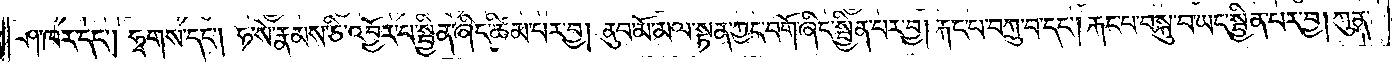ཤ་ཁར་དང༌། ཧྭགས་དང༌། ཧ་སེ་རྣམས་ཅི་འབྱོར་པ་སྦྱིན་ཞིང་ཚིམ་པར་བྱ། ནུབ་མོ་མལ་སྟན་ཀྱང་བགོ་ཞིང་སྦྱིན་བར་བྱ། རྐང་པ་བཀྲུ་བ་དང༌། རྐང་པ་བསྐུ་བ་ཡང་སྦྱིན་པར་བྱ། ཀུན་
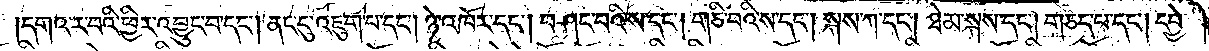དགའ་ར་བའི་ཕྱིར་འབྱུང་བ་དང༌། ནང་དུ་འཇུག་པ་དང༌། ཉེ་འཁོར་དང༌། བཤང་བའི་ས་དང༌། གཅི་བའི་ས་དང༌། སྐས་ཀ་དང༌། ཐེམ་སྐས་དང༌། གཅད་པ་དང༌། དབྱེ་
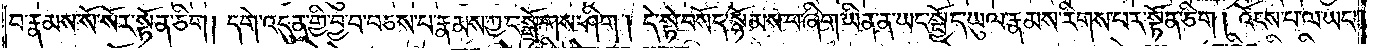བ་རྣམས་སོ་སོར་སྟོན་ཅིག །དགེ་འདུན་གྱི་བྱ་བ་བཅས་པ་རྣམས་ཀྱང་སྒྲོགས་ཤིག །དེ་སྟེ་བསོད་སྙོམས་པ་ཞིག་ཡིན་ན་ཡང་སྤྱོད་ཡུལ་རྣམས་རིགས་པར་སྟོན་ཅིག །འོངས་པ་ལ་ཡང་
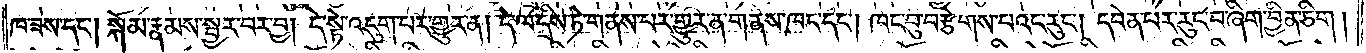ཁ་ཟས་དང༌། སྐོམ་རྣམས་སྦྱར་བར་བྱ། དེ་སྟེ་འདུག་པར་གྱུར་ན། དེ་ལ་དྲིས་ཏེ་གནས་པར་གྱུར་ན་གནས་ཁང་དང༌། ཁང་བུ་བརྩེགས་པའང་རུང༌། དབེན་པར་རུང་བ་ཞིག་བྱིན་ཅིག །
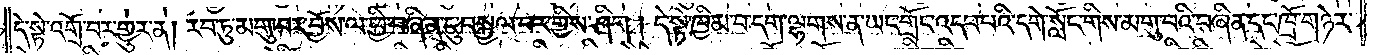དེ་སྟེ་འགྲོ་བར་གྱུར་ན། རབ་ཏུ་མགུ་བར་བྱོས་ལ་ཕྱི་བཞིན་དུ་བསྐྱལ་བར་གྱིས་ཤིག །དེ་སྟེ་ཁྱིམ་བདག་ལྷགས་ན་ཡང་གྲོང་འདབ་པའི་དགེ་སློང་གིས་མགུ་བའི་བཞིན་དང་ཁྲོ་གཉེར་
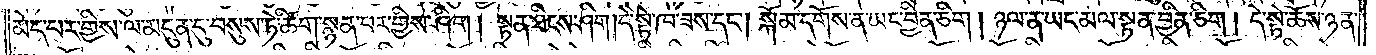མེད་པར་གྱིས་ལ་མདུན་དུ་བསུས་ཏེ་ཚིག་སྙན་པར་གྱིས་ཤིག །སྟན་ཐིངས་ཤིག །དེ་སྟེ་ཁ་ཟས་དང༌། སྐོམ་དགོས་ན་ཡང་བྱིན་ཅིག །ཉལ་ན་ཡང་མལ་སྟན་བྱིན་ཅིག །དེ་སྟེ་ཆོས་ཉན་
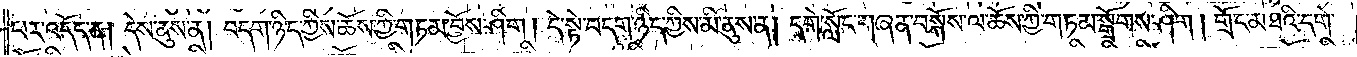པར་འདོད་ན། དེས་ནུས་ན། བདག་ཉིད་ཀྱིས་ཆོས་ཀྱི་གཏམ་བྱོས་ཤིག །དེ་སྟེ་བདག་ཉིད་ཀྱིས་མི་ནུས་ན། དགེ་སློང་གཞན་བསྐོས་ལ་ཆོས་ཀྱི་གཏམ་སྒྲོགས་ཤིག། གྲོང་མཐའི་དགེ་
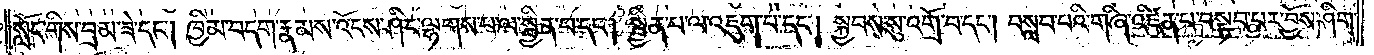སློང་གིས་བྲམ་ཟེ་དང༌། ཁྱིམ་བདག་རྣམས་འོངས་ཤིང་ལྷགས་པ་ལ་སྦྱིན་པ་དང༌། སྦྱིན་པ་ལ་འཇུག་པ་དང༌། སྐྱབས་སུ་འགྲོ་བ་དང༌། བསླབ་པའི་གཞི་འཛིན་པ་བསྟབ་པར་བྱོས་ཤིག་
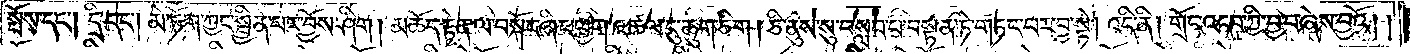སྤོས་དང༌། དྲི་དང༌། མེ་ཏོག་ཀྱང་སྦྱིན་པར་བྱོས་ཤིག། མཆོད་རྟེན་ལ་བསྐོར་ཞིང་ཕྱག་འཚལ་དུ་ཆུག་ཅིག །ཅི་ནུས་སུ་བསླབ་པ་བསྟན་ཏེ་གཏང་བར་བྱ་སྟེ། འདི་ནི། གྲོང་འདབ་ཀྱི་བྱ་བ་ཞེས་བྱའོ། །
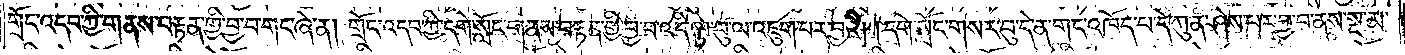གྲོང་འདབ་ཀྱི་གནས་བརྟན་གྱི་བྱ་བ་གང་ཞེ་ན། གྲོང་འདབ་ཀྱི་དགེ་སློང་གནས་བརྟན་གྱི་བྱ་བ་འདི་ལྟ་བུ་ལ་འཇུག་པར་བྱའོ། །དགེ་སློང་གསར་བུ་དེ་ན་གང་འཁོད་པ་དེ་ཀུན་ཤེས་པར་བྱ་བ་ནས་སྔ་མ་
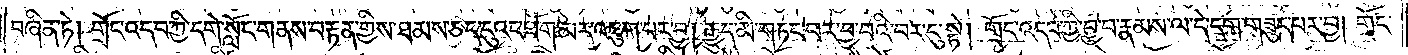བཞིན་ཏེ། གྲོང་འདབ་ཀྱི་དགེ་སློང་གནས་བརྟན་གྱིས་ཐམས་ཅད་དུའང་ཐོག་མར་འཇུག་པར་བྱ། རྒྱུད་མི་གཏང་བར་བྱ་བའི་བར་དུ་སྟེ། གྲོང་འདབ་ཀྱི་བྱ་བ་རྣམས་ལ་དེ་དག་གཟུད་པར་བྱ། གྲོང་
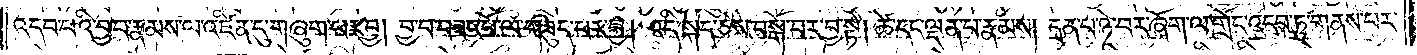འདབ་པའི་བྱ་བ་རྣམས་ལ་འཛིན་དུ་གཞུག་པར་བྱ། བྱ་བ་བཟང་པོ་ལ་གཟུད་པར་བྱ། འདི་སྐད་ཅེས་བསྒོ་བར་བྱ་སྟེ། ཚེ་དང་ལྡན་པ་རྣམས། དྲན་པ་ཉེ་བར་ཞོག་ལ་གྲོང་འདབ་ཏུ་གནས་པར་
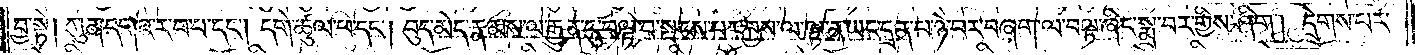བྱ་སྟེ། ཀུན་དགའ་ར་བ་པ་དང༌། དགེ་ཚུལ་ཕ་དང༌། བུད་མེད་རྣམས་ལ་རྒྱུན་དུ་བལྟ་བ་སྤངས་པར་བྱས་ལ་ལྟ་ན་ཡང་དྲན་ལ་ཉེ་བར་བཞག་ལ་བལྟ་ཞིང་སྨྲ་བར་གྱིས་ཤིག །དྲེགས་པར་
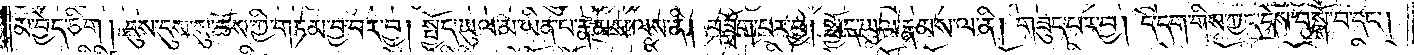མ་བྱེད་ཅིག །དུས་དུས་སུ་ཆོས་ཀྱི་གཏམ་བྱ་བར་བྱ། སྤྱོད་ཡུལ་མ་ཡིན་པར་རྣམས་ལས་ནི། བཟློག་པར་བྱ། སྤྱོད་ཡུལ་རྣམས་ལ་ནི། གཟུད་པར་བྱ། དེ་དག་གིས་ཀྱང་དེས་བསྒོ་བ་དང༌།
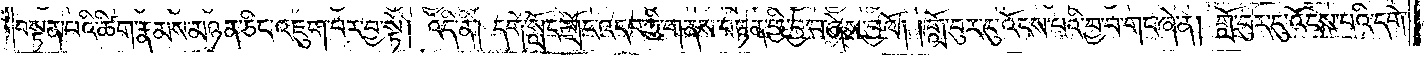བསྟན་པའི་ཚིག་རྣམས་མཉན་ཅིང་འཇུག་པར་བྱ་སྟེ། འདི་ནི། དགེ་སློང་གྲོང་འདབ་ཀྱི་གནས་བརྟན་གྱི་བྱ་བ་ཞེས་བྱའོ། །གློ་བུར་ངུ་འོངས་པའི་བྱ་བ་གང་ཞེ་ན། གློ་བུར་ངུ་འོངས་པའི་དགེ་
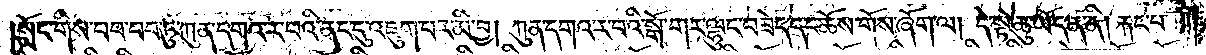སློང་གིས་བབ་བབ་ཏུ་ཀུན་དགའ་ར་བའི་ནང་དུ་འཇུག་པར་མི་བྱ། ཀུན་དགའ་ར་བའི་སྒོ་གར་ལྷུང་བཟེད་དང་ཆོས་གོས་ཞོག་ལ། དེ་སྟེ་ཆུ་ཡོད་ན་ནི། རྐང་པ་
